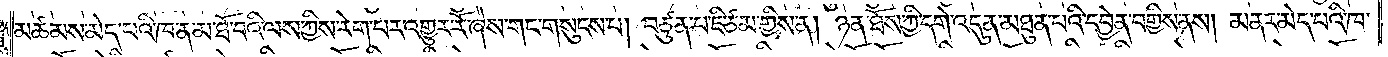མཚམས་མེད་པའི་ཁ་ན་མ་ཐོ་བའི་ལས་ཀྱིས་རེག་པར་འགྱུར་རོ་ཞེས་གང་གསུངས་པ། བཙུན་པ་ཇི་ཙམ་གྱིས་ན། ཉན་ཐོས་ཀྱི་དགེ་འདུན་མཐུན་པའི་དབྱེན་བགྱིས་ནས། མནར་མེད་པའི་ཁ་
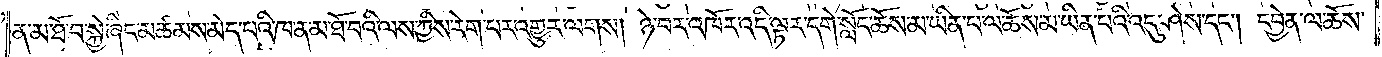ན་མ་ཐོ་བ་སྐྱེ་ཞིང་མཚམས་མེད་པའི་ཁ་ན་མ་ཐོ་བའི་ལས་ཀྱིས་རེག་པར་འགྱུར་ལགས། ཉེ་བར་འཁོར་འདི་ལྟར་དགེ་སློང་ཆོས་མ་ཡིན་པ་ལ་ཆོས་མ་ཡིན་པའི་འདུ་ཤེས་དང༌། དབྱེན་ལ་ཆོས་
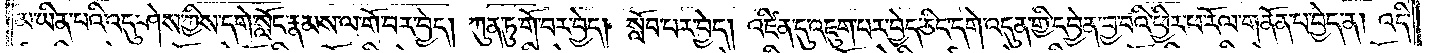མ་ཡིན་པའི་འདུ་ཤེས་ཀྱིས་དགེ་སློང་རྣམས་ལ་གོ་བར་བྱེད། ཀུན་ཏུ་གོ་བར་བྱེད། སློབ་པར་བྱེད། འཛིན་དུ་འཇུག་པར་བྱེད་ཅིང་དགེ་འདུན་གྱི་དབྱེན་བྱ་བའི་ཕྱིར་ཕ་རོལ་གནོན་པ་བྱེད་ན། འདི་
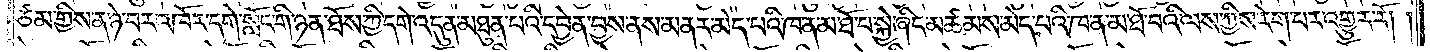ཙམ་གྱིས་ན་ཉེ་བར་འཁོར་དགེ་སློང་གི་ཉན་ཐོས་ཀྱི་དགེ་འདུན་མཐུན་པའི་དབྱེན་བྱས་ནས་མནར་མེད་པའི་ཁ་ན་མ་ཐོ་བ་སྐྱེ་ཞིང་མཚམས་མེད་པའི་ཁ་ན་མ་ཐོ་བའི་ལས་ཀྱིས་རེག་པར་འགྱུར་རོ༎
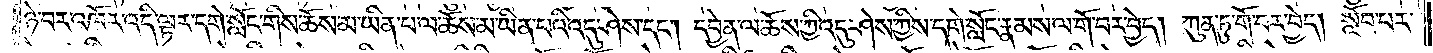ཉེ་བར་འཁོར་འདི་ལྟར་དགེ་སློང་གིས་ཆོས་མ་ཡིན་པ་ལ་ཆོས་མ་ཡིན་པའི་འདུ་ཤེས་དང༌། དབྱེན་ལ་ཆོས་ཀྱི་འདུ་ཤེས་ཀྱིས་དགེ་སློང་རྣམས་ལ་གོ་བར་བྱེད། ཀུན་ཏུ་གོ་བར་བྱེད། སློབ་པར་
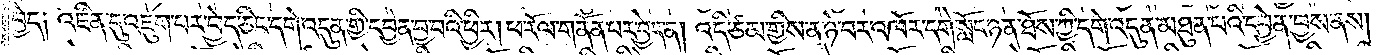བྱེད༑ འཛིན་དུ་འཇུག་པར་བྱེད་ཅིང་དགེ་འདུན་གྱི་དབྱེན་བྱ་བའི་ཕྱིར། ཕ་རོལ་གནོན་པར་བྱེད་ན། འདི་ཙམ་གྱིས་ན་ཉེ་བར་འཁོར་དགེ་སློང་ཉན་ཐོས་ཀྱི་དགེ་འདུན་མཐུན་པའི་དབྱེན་བྱས་ནས།
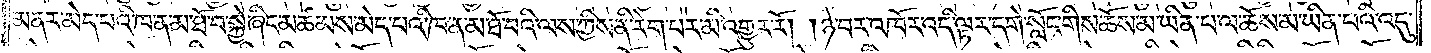མནར་མེད་པའི་ཁ་ན་མ་ཐོ་བ་སྐྱེ་ཞིང་མཚམས་མེད་པའི་ཁ་ན་མ་ཐོ་བའི་ལས་ཀྱིས་ནི་རེག་པར་མི་འགྱུར་རོ། །ཉེ་བར་འཁོར་འདི་ལྟར་དགེ་སློང་གིས་ཆོས་མ་ཡིན་པ་ལ་ཆོས་མ་ཡིན་པའི་འདུ་
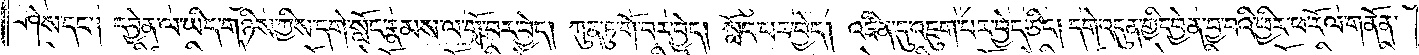ཤེས་དང༌། དབྱེན་ལ་ཡིད་གཉིས་ཀྱིས་དགེ་སློང་རྣམས་ལ་གོ་བར་བྱེད། ཀུན་ཏུ་གོ་བར་བྱེད། སློབ་པར་བྱེད། འཛིན་དུ་འཇུག་པར་བྱེད་ཅིང༌། དགེ་འདུན་གྱི་དབྱེན་བྱ་བའི་ཕྱིར་ཕ་རོལ་གནོན་
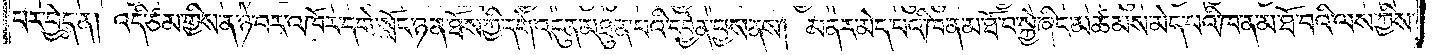པར་བྱེད་ན། འདི་ཙམ་གྱིས་ན་ཉེ་བར་འཁོར་དགེ་སློང་ཉན་ཐོས་ཀྱི་དགེ་འདུན་མཐུན་པའི་དབྱེན་བྱས་ནས། མནར་མེད་པའི་ཁ་ན་མ་ཐོ་བ་སྐྱེ་ཞིང་མཚམས་མེད་པའི་ཁ་ན་མ་ཐོ་བའི་ལས་ཀྱིས་
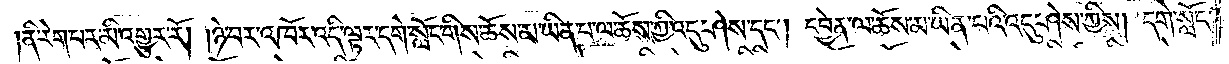ནི་རེག་པར་མི་འགྱུར་རོ། །ཉེ་བར་འཁོར་འདི་ལྟར་དགེ་སློང་གིས་ཆོས་མ་ཡིན་པ་ལ་ཆོས་ཀྱི་འདུ་ཤེས་དང༌། དབྱེན་ལ་ཆོས་མ་ཡིན་པའི་འདུ་ཤེས་ཀྱིས། དགེ་སློང་
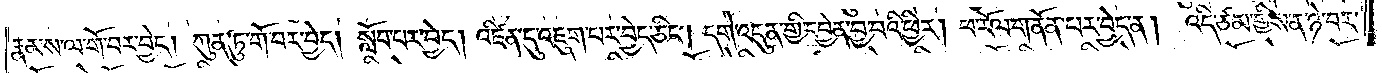རྣམས་ལ་གོ་བར་བྱེད། ཀུན་ཏུ་གོ་བར་བྱེད། སློབ་པར་བྱེད། འཛིན་དུ་འཇུག་པར་བྱེད་ཅིང༌། དགེ་འདུན་གྱི་དབྱེན་བྱ་བའི་ཕྱིར། ཕ་རོལ་གནོན་པར་བྱེད་ན། འདི་ཙམ་གྱིས་ན་ཉེ་བར་
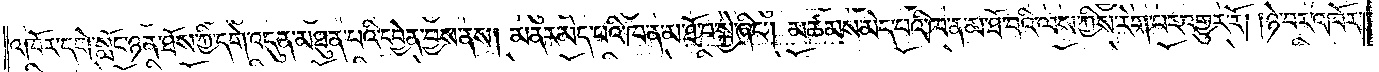འཁོར་དགེ་སློང་ཉན་ཐོས་ཀྱི་དགེ་འདུན་མཐུན་པའི་དབྱེན་བྱས་ནས། མནར་མེད་པའི་ཁ་ན་མ་ཐོ་བ་སྐྱེ་ཞིང༌། མཚམས་མེད་པའི་ཁ་ན་མ་ཐོ་བའི་ལས་ཀྱིས་རེག་པར་འགྱུར་རོ། །ཉེ་བར་འཁོར་
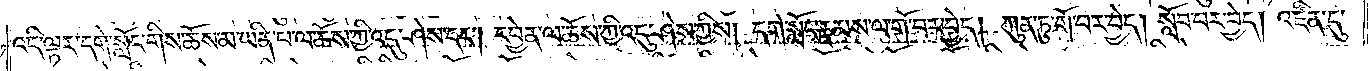འདི་ལྟར་དགེ་སློང་གིས་ཆོས་མ་ཡིན་པ་ལ་ཆོས་ཀྱི་འདུ་ཤེས་དང༌། དབྱེན་ལ་ཆོས་ཀྱི་འདུ་ཤེས་ཀྱིས། དགེ་སློང་རྣམས་ལ་གོ་བར་བྱེད། ཀུན་ཏུ་གོ་བར་བྱེད། སློབ་པར་བྱེད། འཛིན་དུ་
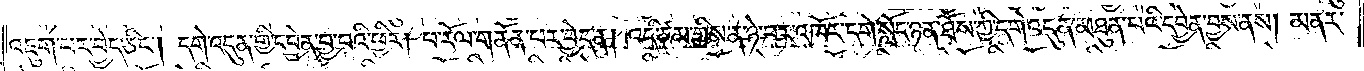འཇུག་པར་བྱེད་ཅིང༌། དགེ་འདུན་གྱི་དབྱེན་བྱ་བའི་ཕྱིར། ཕ་རོལ་གནོན་པར་བྱེད་ན། འདི་ཙམ་གྱིས་ན་ཉེ་བར་འཁོར་དགེ་སློང་ཉན་ཐོས་ཀྱི་དགེ་འདུན་མཐུན་པའི་དབྱེན་བྱས་ནས། མནར་
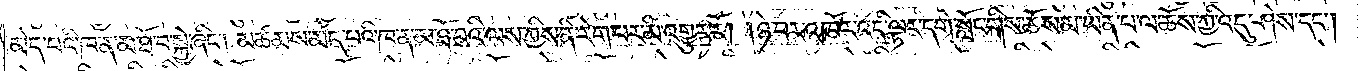མེད་པའི་ཁ་ན་མ་ཐོ་བ་སྐྱེ་ཞིང༌། མཚམས་མེད་པའི་ཁ་ན་མ་ཐོ་བའི་ལས་ཀྱིས་ནི་རག་པར་མི་འགྱུར་རོ། །ཉེ་བར་འཁོར་འདི་ལྟར་དགེ་སློང་གིས་ཆོས་མ་ཡིན་པ་ལ་ཆོས་ཀྱི་འདུ་ཤེས་དང༌།
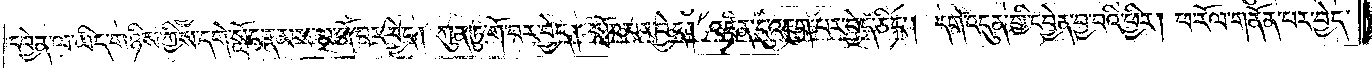དབྱེན་ལ་ཡིད་གཉིས་ཀྱིས་དགེ་སློང་རྣམས་ལ་གོ་བར་བྱེད། ཀུན་ཏུ་གོ་བར་བྱེད། སློབ་པར་བྱེད། འཛིན་དུ་འཇུག་པར་བྱེད་ཅིང༌། དགེ་འདུན་གྱི་དབྱེན་བྱ་བའི་ཕྱིར། ཕ་རོལ་གནོན་པར་བྱེད་
